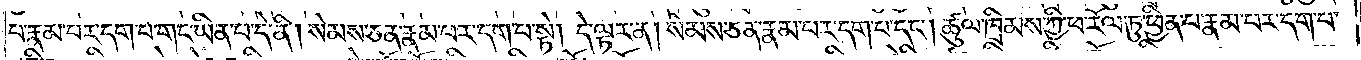པ་རྣམ་པར་དག་པ་གང་ཡིན་པ་དེ་ནི། སེམས་ཅན་རྣམ་པར་དག་པ་སྟེ། དེ་ལྟར་ན། སེམས་ཅན་རྣམ་པར་དག་པ་དང༌། ཚུལ་ཁྲིམས་ཀྱི་ཕ་རོལ་ཏུ་ཕྱིན་པ་རྣམ་པར་དག་པ་
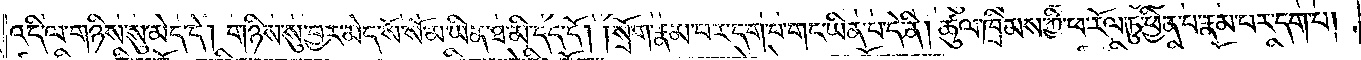འདི་ལ་གཉིས་སུ་མེད་དེ། གཉིས་སུ་བྱར་མེད་སོ་སོ་མ་ཡིན་ཐ་མི་དད་དོ། །སྲོག་རྣམ་པར་དག་པ་གང་ཡིན་པ་དེ་ནི། ཚུལ་ཁྲིམས་ཀྱི་ཕ་རོལ་ཏུ་ཕྱིན་པ་རྣམ་པར་དག་པ།
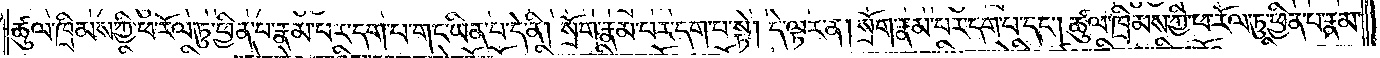ཚུལ་ཁྲིམས་ཀྱི་ཕ་རོལ་ཏུ་ཕྱིན་པ་རྣམ་པར་དག་པ་གང་ཡིན་པ་དེ་ནི། སྲོག་རྣམ་པར་དག་པ་སྟེ། དེ་ལྟར་ན། སྲོག་རྣམ་པར་དག་པ་དང༌། ཚུལ་ཁྲིམས་ཀྱི་ཕ་རོལ་ཏུ་ཕྱིན་པ་རྣམ་
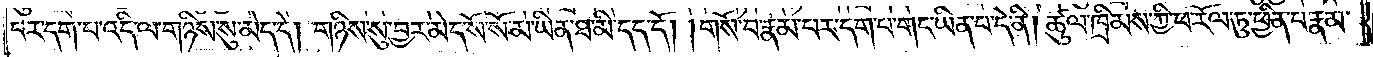པར་དག་པ་འདི་ལ་གཉིས་སུ་མེད་དེ། གཉིས་སུ་བྱར་མེད་སོ་སོ་མ་ཡིན་ཐ་མི་དད་དོ། །གསོ་བ་རྣམ་པར་དག་པ་གང་ཡིན་པ་དེ་ནི། ཚུལ་ཁྲིམས་ཀྱི་ཕ་རོལ་ཏུ་ཕྱིན་པ་རྣམ་
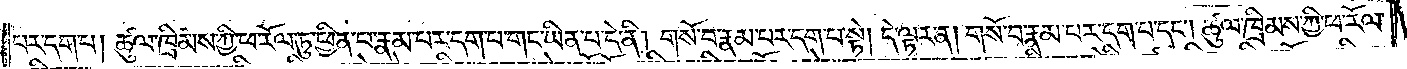པར་དག་པ། ཚུལ་ཁྲིམས་ཀྱི་ཕ་རོལ་ཏུ་ཕྱིན་པ་རྣམ་པར་དག་པ་གང་ཡིན་པ་དེ་ནི། གསོ་བ་རྣམ་པར་དག་པ་སྟེ། དེ་ལྟར་ན། གསོ་བ་རྣམ་པར་དག་པ་དང༌། ཚུལ་ཁྲིམས་ཀྱི་ཕ་རོལ་
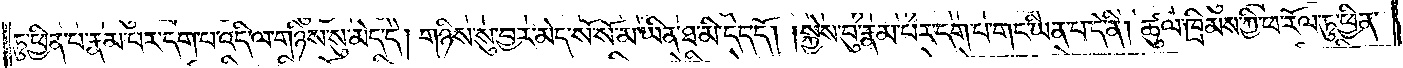ཏུ་ཕྱིན་པ་རྣམ་པར་དག་པ་འདི་ལ་གཉིས་སུ་མེད་དེ། གཉིས་སུ་བྱར་མེད་སོ་སོ་མ་ཡིན་ཐ་མི་དད་དོ། །སྐྱེས་བུ་རྣམ་པར་དག་པ་གང་ཡིན་པ་དེ་ནི། ཚུལ་ཁྲིམས་ཀྱི་ཕ་རོལ་ཏུ་ཕྱིན་
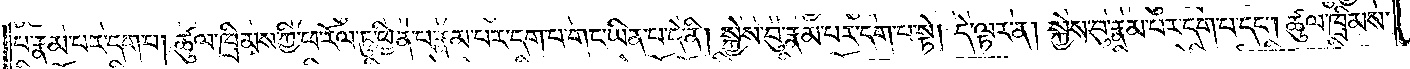པ་རྣམ་པར་དག་པ། ཚུལ་ཁྲིམས་ཀྱི་ཕ་རོལ་ཏུ་ཕྱིན་པ་རྣམ་པར་དག་པ་གང་ཡིན་པ་དེ་ནི། སྐྱེས་བུ་རྣམ་པར་དག་པ་སྟེ། དེ་ལྟར་ན། སྐྱེས་བུ་རྣམ་པར་དག་པ་དང༌། ཚུལ་ཁྲིམས་
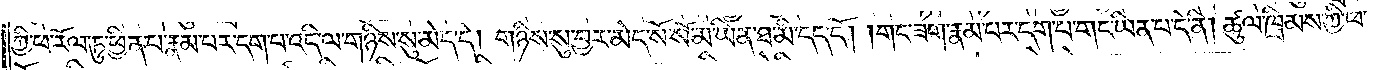ཀྱི་ཕ་རོལ་ཏུ་ཕྱིན་པ་རྣམ་པར་དག་པ་འདི་ལ་གཉིས་སུ་མེད་དེ། གཉིས་སུ་བྱར་མེད་སོ་སོ་མ་ཡིན་ཐ་མི་དད་དོ། །གང་ཟག་རྣམ་པར་དག་པ་གང་ཡིན་པ་དེ་ནི། ཚུལ་ཁྲིམས་ཀྱི་ཕ་
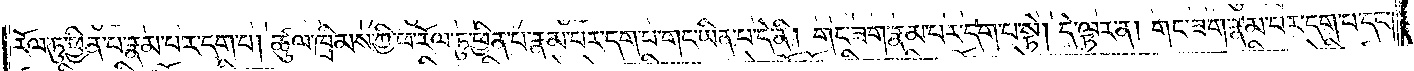རོལ་ཏུ་ཕྱིན་པ་རྣམ་པར་དག་པ། ཚུལ་ཁྲིམས་ཀྱི་ཕ་རོལ་ཏུ་ཕྱིན་པ་རྣམ་པར་དག་པ་གང་ཡིན་པ་དེ་ནི། གང་ཟག་རྣམ་པར་དག་པ་སྟེ། དེ་ལྟར་ན། གང་ཟག་རྣམ་པར་དག་པ་དང༌།
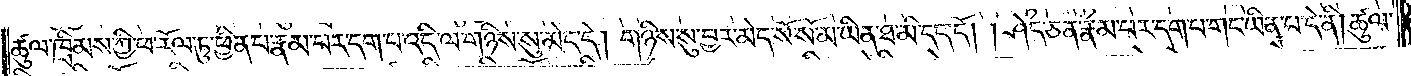ཚུལ་ཁྲིམས་ཀྱི་ཕ་རོལ་ཏུ་ཕྱིན་པ་རྣམ་པར་དག་པ་འདི་ལ་གཉིས་སུ་མེད་དེ། གཉིས་སུ་བྱར་མེད་སོ་སོ་མ་ཡིན་ཐ་མི་དད་དོ། །ཤེད་ཅན་རྣམ་པར་དག་པ་གང་ཡིན་པ་དེ་ནི། ཚུལ་
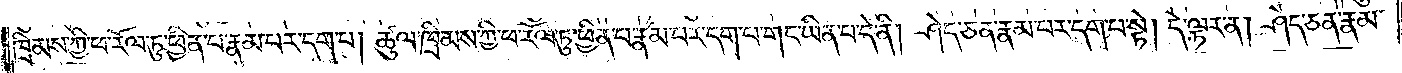ཁྲིམས་ཀྱི་ཕ་རོལ་ཏུ་ཕྱིན་པ་རྣམ་པར་དག་པ། ཚུལ་ཁྲིམས་ཀྱི་ཕ་རོལ་ཏུ་ཕྱིན་པ་རྣམ་པར་དག་པ་གང་ཡིན་པ་དེ་ནི། ཤེད་ཅན་རྣམ་པར་དག་པ་སྟེ། དེ་ལྟར་ན། ཤེད་ཅན་རྣམ་
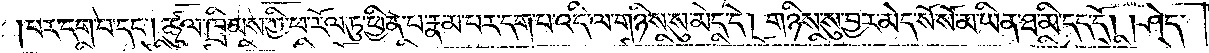པར་དག་པ་དང༌། ཚུལ་ཁྲིམས་ཀྱི་ཕ་རོལ་ཏུ་ཕྱིན་པ་རྣམ་པར་དག་པ་འདི་ལ་གཉིས་སུ་མེད་དེ། གཉིས་སུ་བྱར་མེད་སོ་སོ་མ་ཡིན་ཐ་མི་དད་དོ། །ཤེད་
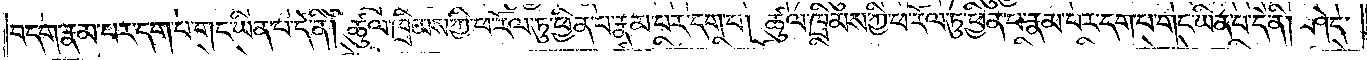བདག་རྣམ་པར་དག་པ་གང་ཡིན་པ་དེ་ནི། ཚུལ་ཁྲིམས་ཀྱི་ཕ་རོལ་ཏུ་ཕྱིན་པ་རྣམ་པར་དག་པ། ཚུལ་ཁྲིམས་ཀྱི་ཕ་རོལ་ཏུ་ཕྱིན་པ་རྣམ་པར་དག་པ་གང་ཡིན་པ་དེ་ནི། ཤེད་
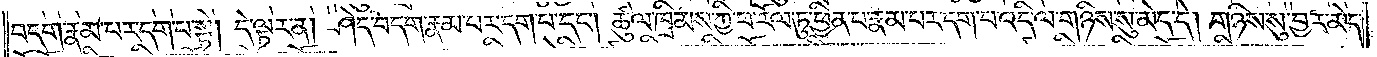བདག་རྣམ་པར་དག་པ་སྟེ། དེ་ལྟར་ན། ཤེད་བདག་རྣམ་པར་དག་པ་དང༌། ཚུལ་ཁྲིམས་ཀྱི་ཕ་རོལ་ཏུ་ཕྱིན་པ་རྣམ་པར་དག་པ་འདི་ལ་གཉིས་སུ་མེད་དེ། གཉིས་སུ་བྱར་མེད་
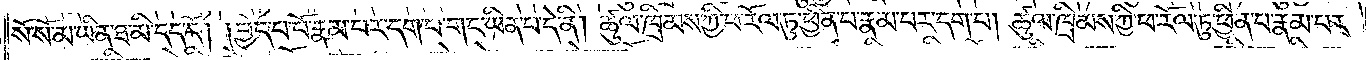སོ་སོ་མ་ཡིན་ཐ་མི་དད་དོ། །བྱེད་པ་པོ་རྣམ་པར་དག་པ་གང་ཡིན་པ་དེ་ནི། ཚུལ་ཁྲིམས་ཀྱི་ཕ་རོལ་ཏུ་ཕྱིན་པ་རྣམ་པར་དག་པ། ཚུལ་ཁྲིམས་ཀྱི་ཕ་རོལ་ཏུ་ཕྱིན་པ་རྣམ་པར་
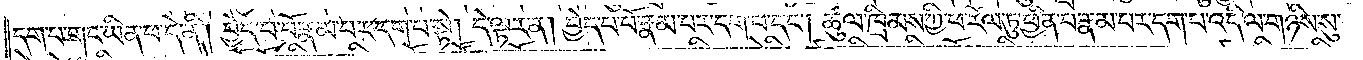དག་པ་གང་ཡིན་པ་དེ་ནི། བྱེད་པ་པོ་རྣམ་པར་དག་པ་སྟེ། དེ་ལྟར་ན། བྱེད་པ་པོ་རྣམ་པར་དག་པ་དང༌། ཚུལ་ཁྲིམས་ཀྱི་ཕ་རོལ་ཏུ་ཕྱིན་པ་རྣམ་པར་དག་པ་འདི་ལ་གཉིས་སུ་
